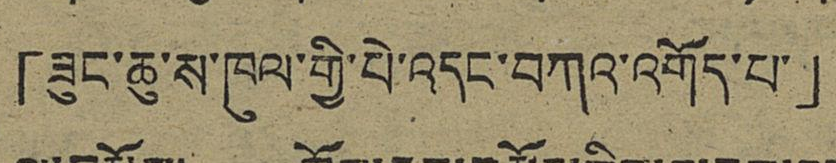「ཟུང་ཆུ་ས་ཁུལ་གྱི་པེ་འདང་བཀའ་འགོད་པ་」
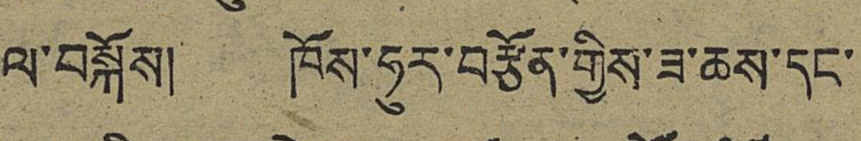ལ་བསྐོས། ཁོས་ཧུར་བརྩོན་གྱིས་ཟ་ཆས་དང་
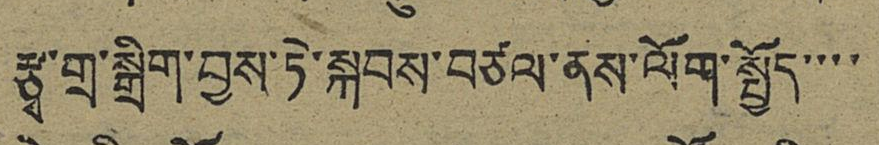རྩྭ་གྲ་སྒྲིག་བྱས་ཏེ་སྐབས་བཙལ་ནས་ལོག་སྤྱོད་་་་
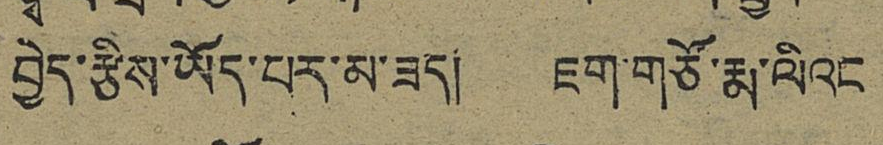བྱེད་རྩིས་ཡོད་པར་མ་ཟད། ཇག་གཙོ་རྨ་ལིའང
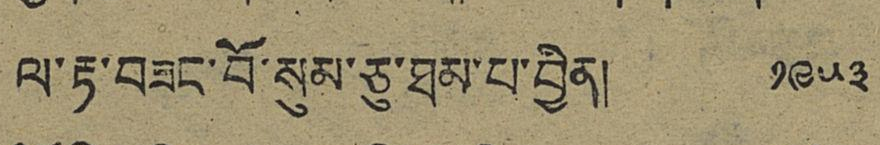ལ་རྟ་བཟང་བོ་སུམ་ཅུ་ཐམ་པ་བྱིན། ༡༩༥༣
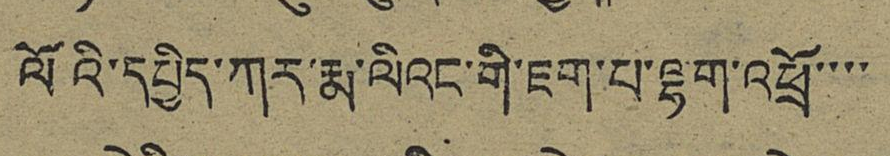ལོའི་དཔྱིད་ཀར་རྨ་ལིའང་གི་ཇག་པ་ལྷག་འཕྲོ་་་་
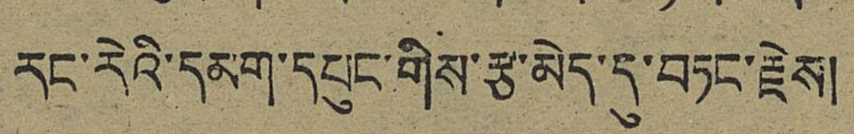རང་རེའི་དམག་དཔུང་གིས་རྩ་མེད་དུ་བཏང་རྗེས།
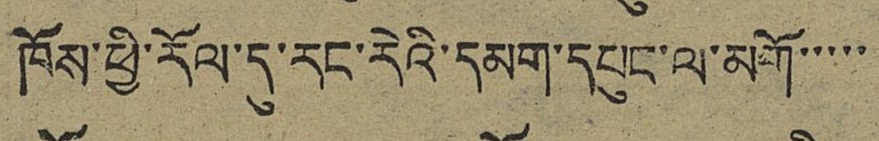ཁོས་ཕྱི་རོལ་དུ་རང་རེའི་དམག་དཔུང་ལ་མགོ་་་་་
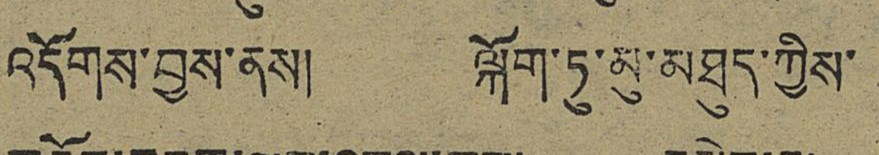འདོགས་བྱས་ནས། ལྐོག་ཏུ་མུ་མཐུད་ཀྱིས་
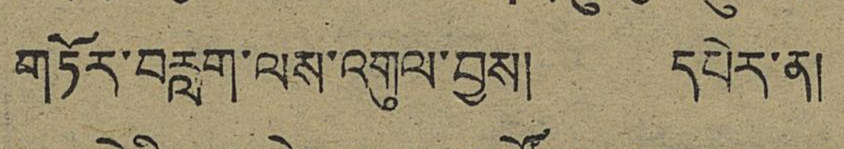གཏོར་བརླག་ལས་འགུལ་བྱས། དཔེར་ན།
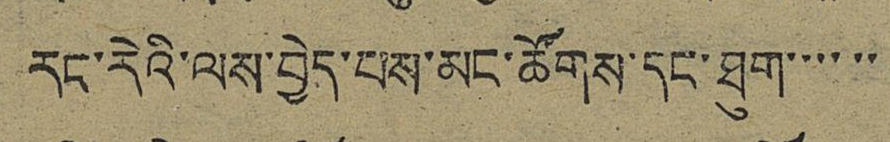རང་རེའི་ལས་བྱེད་པས་མང་ཚོགས་དང་ཐུག་་་་་་
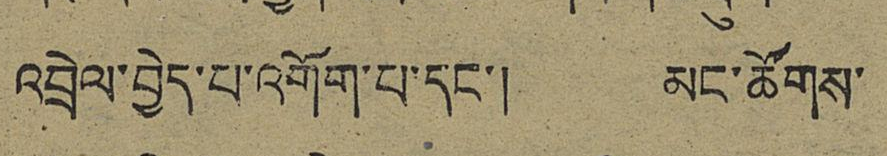འབྲེལ་བྱེད་པ་འགོག་པ་དང་། མང་ཚོགས་
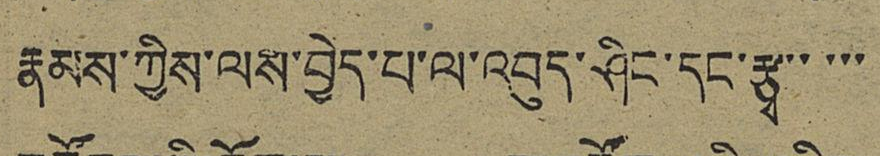རྣམས་ཀྱིས་ལས་བྱེད་པ་ལ་འབུད་ཤིང་དང་རྩྭ་་་་་
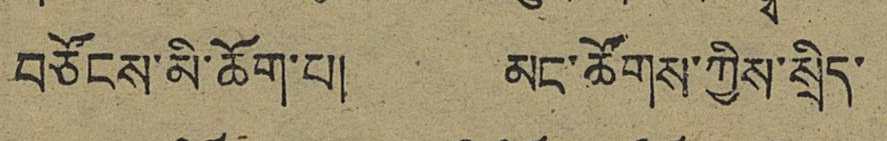བཙོངས་མི་ཆོག་པ། མང་ཚོགས་ཀྱིས་སྲིད་
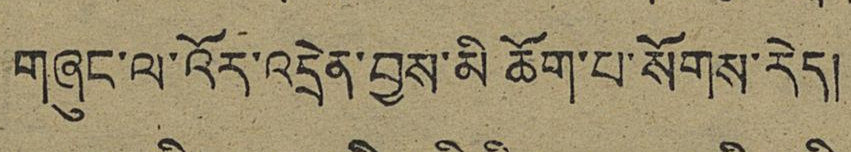གཞུང་ལ་འོར་འདྲེན་བྱས་མི ཆོག་པ་སོགས་རེད།
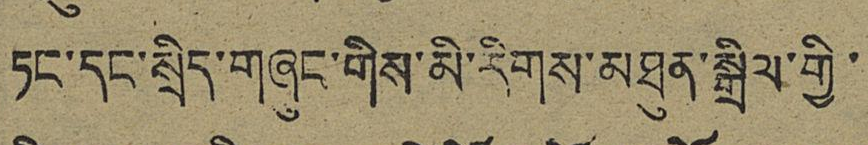ཏང་དང་སྲིད་གཞུང་གིས་མི་རིགས་མཐུན་སྒྲིལ་གྱི་
